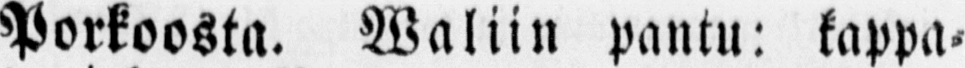Porkoosta. Waliin pantu: kappa-
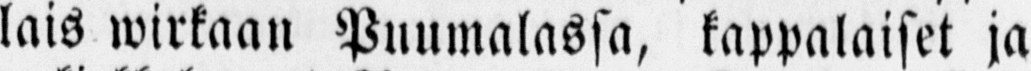lais wirkaan Puumalassa, kappalaiset ja
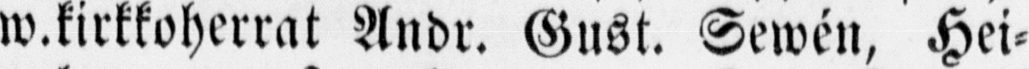w.kirkkoherrat Andr. Gust. Sewén, Hei-
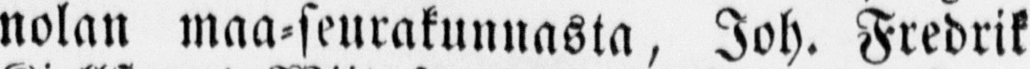nolan maa-seurakunnasta, Joh. Fredrik
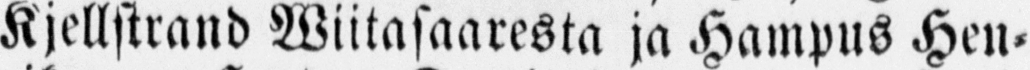Kjellstrand Wiitasaaresta ja Hampus Hen-
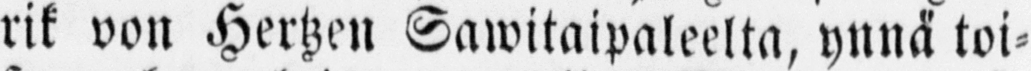rik von Hertzen Sawitaipaleelta, ynnä toi-
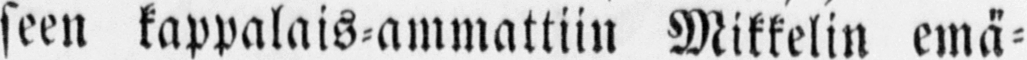seen kappalais-ammattiin Mikkelin emä-
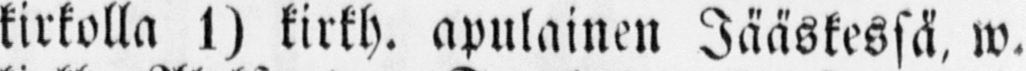kirkolla 1) kirkh. apulainen Jääskessä, w.
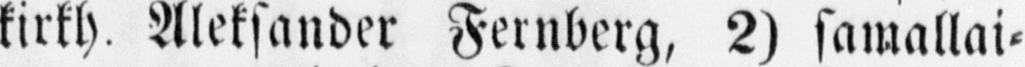kirkh. Aleksander Fernberg, 2) samallai-
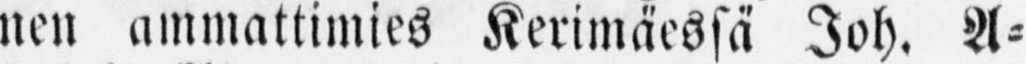nen ammattimies Kerimäessä Joh. A-
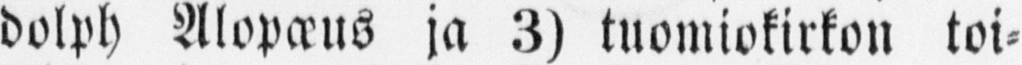dolph Alopæus ja 3) tuomiokirkon toi-
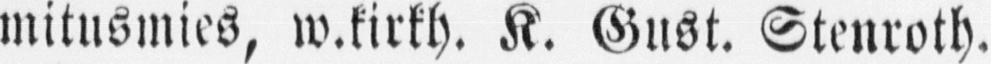mitusmies, w.kirkh. K. Gust. Stenroth.
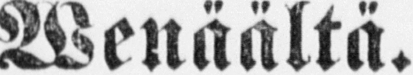Wenäältä.
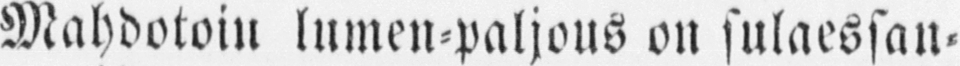Mahdotoin lumen-paljous on sulaessan-
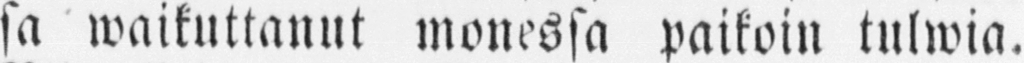sa waikuttanut monessa paikoin tulwia.
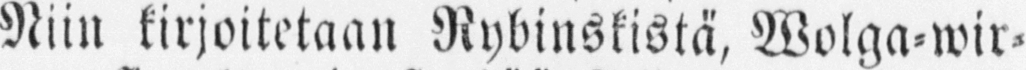Niin kirjoitetaan Nybinskistä, Wolga-wir-
